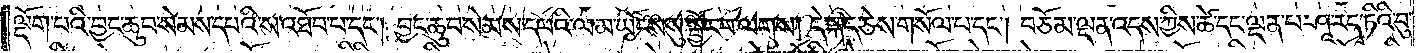ལྡོག་པའི་བྱང་ཆུབ་སེམས་དཔའི་ས་འཐོབ་པ་དང༌། བྱང་ཆུབ་སེམས་དཔའི་ལམ་ཡོངས་སུ་སྦྱོང་བ་ལགས། དེ་སྐད་ཅེས་གསོལ་པ་དང༌། བཅོམ་ལྡན་འདས་ཀྱིས་ཚེ་དང་ལྡན་པ་ཤཱ་ར་དྭ་ཏིའི་བུ་
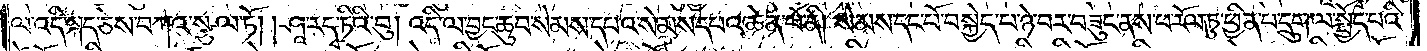ལ་འདི་སྐད་ཅེས་བཀའ་སྩལ་ཏོ། །ཤཱ་ར་དྭ་ཏིའི་བུ། འདི་ལ་བྱང་ཆུབ་སེམས་དཔའ་སེམས་དཔའ་ཆེན་པོ་ནི། སེམས་དང་པོ་བསྐྱེད་པ་ཉེ་བར་བཟུང་ནས་ཕ་རོལ་ཏུ་ཕྱིན་པ་དྲུག་ལ་སྤྱོད་པའི་
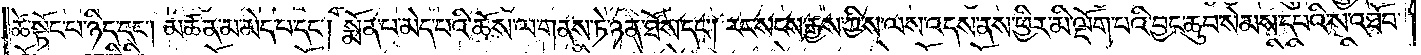ཚེ་སྟོང་པ་ཉིད་དང༌། མཚན་མ་མེད་པ་དང༌། སྨོན་པ་མེད་པའི་ཆོས་ལ་གནས་ཏེ་ཉན་ཐོས་དང༌། རང་སངས་རྒྱས་ཀྱིས་ལས་འདས་ནས་ཕྱིར་མི་ལྡོག་པའི་བྱང་ཆུབ་སེམས་དཔའི་ས་འཐོབ་
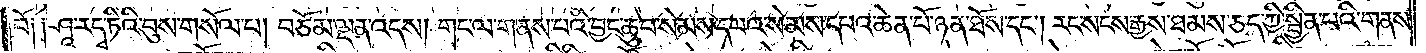བོ༑ ༑ཤཱ་རདྭ་ཏིའི་བུས་གསོལ་པ། བཅོམ་ལྡན་འདས། གང་ལ་གནས་པའི་བྱང་ཆུབ་སེམས་དཔའ་སེམས་དཔའ་ཆེན་པོ་ཉན་ཐོས་དང༌། རང་སངས་རྒྱས་ཐམས་ཅད་ཀྱི་སྦྱིན་པའི་གནས་
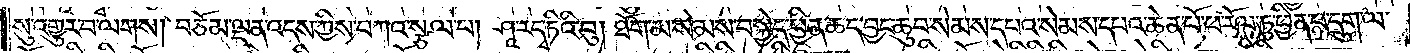སུ་འགྱུར་བ་ལགས། བཅོམ་ལྡན་འདས་ཀྱིས་བཀའ་སྩལ་པ། ཤཱ་རདྭ་ཏིའི་བུ། ཐོག་མ་སེམས་བསྐྱེད་ཕྱིན་ཆད་བྱང་ཆུབ་སེམས་དཔའ་སེམས་དཔའ་ཆེན་པོ་ཕ་རོལ་ཏུ་ཕྱིན་པ་དྲུག་ལ་
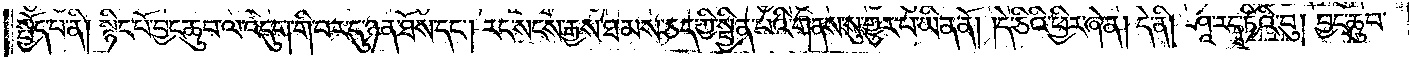སྤྱོད་པ་ནི། སྙིང་པོ་བྱང་ཆུབ་ལ་འདུག་གི་བར་དུ་ཉན་ཐོས་དང༌། རང་སངས་རྒྱས་ཐམས་ཅད་ཀྱི་སྦྱིན་པའི་གནས་སུ་གྱུར་པ་ཡིན་ནོ། །དེ་ཅིའི་ཕྱིར་ཞེ་ན། དེ་ནི། ཤཱ་ར་དྭ་ཏིའི་བུ། བྱང་ཆུབ་
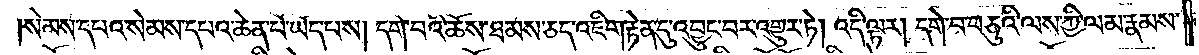སེམས་དཔའ་སེམས་དཔའ་ཆེན་པོ་ཡོད་པས། དགེ་བའི་ཆོས་ཐམས་ཅད་འཇིག་རྟེན་དུ་འབྱུང་བར་འགྱུར་ཏེ། འདི་ལྟར། དགེ་བ་བཅུའི་ལས་ཀྱི་ལམ་རྣམས་
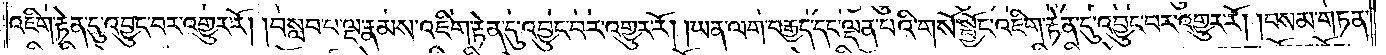འཇིག་རྟེན་དུ་འབྱུང་བར་འགྱུར་རོ། །བསླབ་པ་ལྔ་རྣམས་འཇིག་རྟེན་དུ་འབྱུང་བར་འགྱུར་རོ། །ཡན་ལག་བརྒྱད་དང་ལྡན་པའི་གསོ་སྦྱོང་འཇིག་རྟེན་དུ་འབྱུང་བར་འགྱུར་རོ། །བསམ་གཏན་
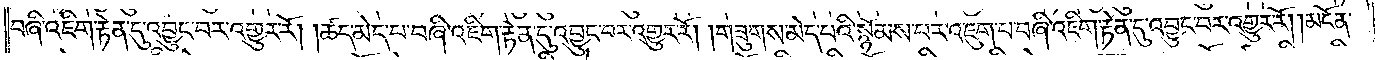བཞི་འཇིག་རྟེན་དུ་འབྱུང་བར་འགྱུར་རོ། །ཚད་མེད་པ་བཞི་འཇིག་རྟེན་དུ་འབྱུང་བར་འགྱུར་རོ། །གཟུགས་མེད་པའི་སྙོམས་པར་འཇུག་པ་བཞི་འཇིག་རྟེན་དུ་འབྱུང་བར་འགྱུར་རོ། །མངོན་
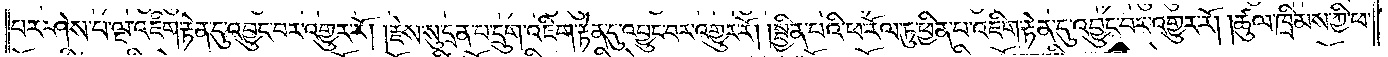པར་ཤེས་པ་ལྔ་འཇིག་རྟེན་དུ་འབྱུང་བར་འགྱུར་རོ། །རྗེས་སུ་དྲན་པ་དྲུག་འཇིག་རྟེན་དུ་འབྱུང་བར་འགྱུར་རོ། །སྦྱིན་པའི་ཕ་རོལ་ཏུ་ཕྱིན་པ་འཇིག་རྟེན་དུ་འབྱུང་བར་འགྱུར་རོ། །ཚུལ་ཁྲིམས་ཀྱི་ཕ་
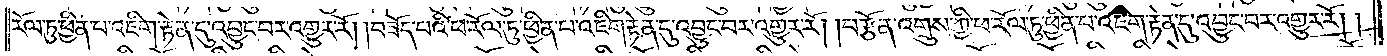རོལ་ཏུ་ཕྱིན་པ་འཇིག་རྟེན་དུ་འབྱུང་བར་འགྱུར་རོ། །བཟོད་པའི་ཕ་རོལ་ཏུ་ཕྱིན་པ་འཇིག་རྟེན་དུ་འབྱུང་བར་འགྱུར་རོ། །བརྩོན་འགྲུས་ཀྱི་ཕ་རོལ་ཏུ་ཕྱིན་པ་འཇིག་རྟེན་དུ་འབྱུང་བར་འགྱུར་རོ།
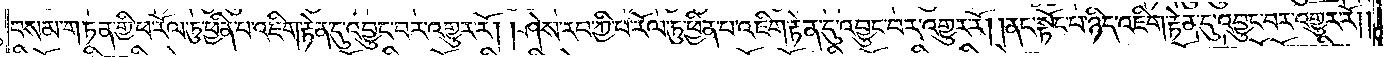བསམ་གཏན་གྱི་ཕ་རོལ་ཏུ་ཕྱིན་པ་འཇིག་རྟེན་དུ་འབྱུང་བར་འགྱུར་རོ། །ཤེས་རབ་ཀྱི་པ་རོལ་ཏུ་ཕྱིན་པ་འཇིག་རྟེན་དུ་འབྱུང་བར་འགྱུར་རོ། །ནང་སྟོང་པ་ཉིད་འཇིག་རྟེན་དུ་འབྱུང་བར་འགྱུར་རོ། །
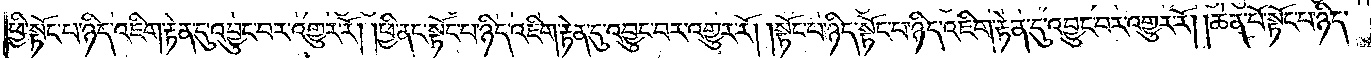ཕྱི་སྟོང་པ་ཉིད་འཇིག་རྟེན་དུ་འབྱུང་བར་འགྱུར་རོ། །ཕྱི་ནང་སྟོང་པ་ཉིད་འཇིག་རྟེན་དུ་འབྱུང་བར་འགྱུར་རོ། །སྟོང་པ་ཉིད་སྟོང་པ་ཉིད་འཇིག་རྟེན་དུ་འབྱུང་བར་འགྱུར་རོ། །ཆེན་པོ་སྟོང་པ་ཉིད་
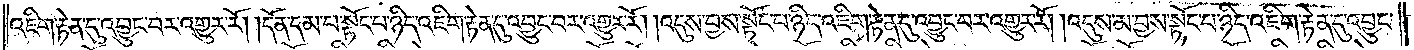འཇིག་རྟེན་དུ་འབྱུང་བར་འགྱུར་རོ། །དོན་དམ་པ་སྟོང་བཔཉིད་འཇིག་རྟེན་དུ་འབྱུང་བར་འགྱུར་རོ། །འདུས་བྱས་སྟོང་པ་ཉིད་འཇིག་རྟེན་དུ་འབྱུང་བར་འགྱུར་རོ། །འདུས་མ་བྱས་སྟོང་པ་ཉིད་འཇིག་རྟེན་དུ་འབྱུང་
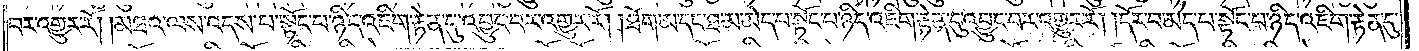བར་འགྱུར་རོ། །མཐའ་ལས་འདས་པ་སྟོང་པ་ཉིད་འཇིག་རྟེན་དུ་འབྱུང་བར་འགྱུར་རོ། །ཐོག་མ་དང་ཐ་མ་མེད་པ་སྟོང་པ་ཉིད་འཇིག་རྟེན་དུ་འབྱུང་བར་འགྱུར་རོ། །དོར་བ་མེད་པ་སྟོང་པ་ཉིད་འཇིག་རྟེན་དུ་
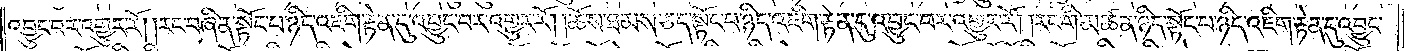འབྱུང་བར་འགྱུར་རོ། །རང་བཞིན་སྟོང་པ་ཉིད་འཇིག་རྟེན་དུ་འབྱུང་བར་འགྱུར་རོ། །ཆོས་ཐམས་ཅད་སྟོང་པ་ཉིད་འཇིག་རྟེན་དུ་འབྱུང་པར་འགྱུར་རོ། །རང་གི་མཚན་ཉིད་སྟོང་པ་ཉིད་འཇིག་རྟེན་དུ་འབྱུང་
